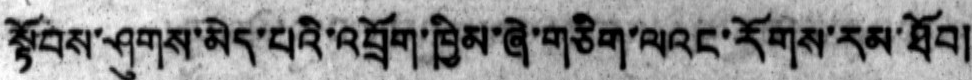སྟོབས་ཤུགས་མེད་པའི་འབྲོག་ཁྱིམ་ཞེ་གཅིག་ལའང་རོགས་རམ་ཐོབ།
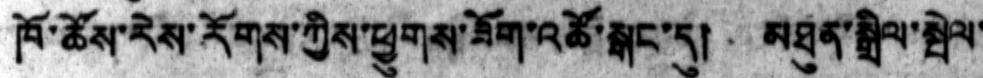ཁོ་ཚོས་རེས་རོགས་ཀྱིས་ཕྱུགས་ཟོག་འཚོ་སྒང་དུ། མཐུན་སྒྲིལ་སྤེལ་
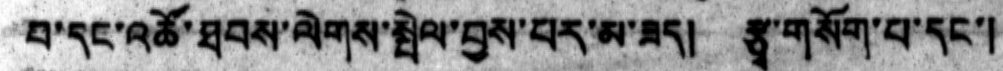པ་དང་འཚོ་ཐབས་ལེགས་སྤེལ་བྱས་པར་མ་ཟད། རྩྭ་གསོག་པ་དང་།
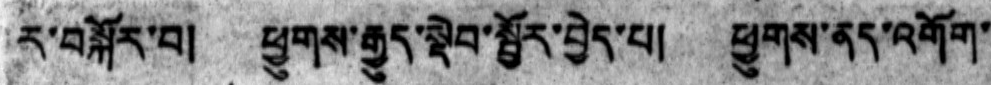ར་བསྐོར་བ། ཕྱུགས་རྒྱུད་སྡེབ་སྦྱོར་བྱེད་པ། ཕྱུགས་ནད་འགོག་
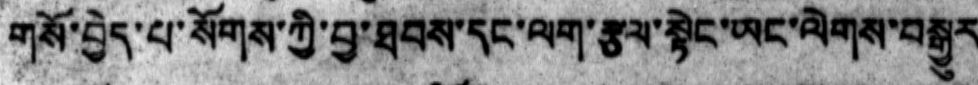གསོ་བྱེད་པ་སོགས་ཀྱི་བྱ་ཐབས་དང་ལག་རྩལ་སྟེང་ཡང་ལེགས་བསྒྱུར
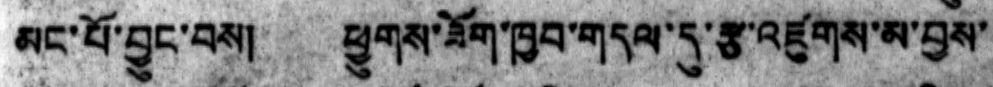མང་པོ་བྱུང་བས། ཕྱུགས་ཟོག་ཁྱབ་གདལ་དུ་རྩ་འཛུགས་མ་བྱས་
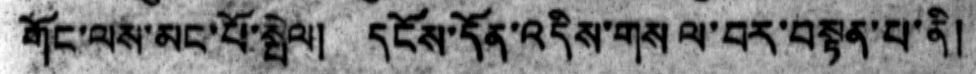གོང་ལས་མང་པོ་སྤེལ། དངོས་དོན་འདིས་གསལ་བར་བསྟན་པ་ནི།
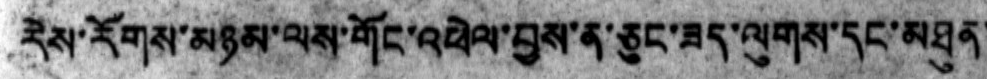རེས་རོགས་མཉམ་ལས་གོང་འཕེལ་བྱས་ན་ཅུང་ཟད་ལུགས་དང་མཐུན་
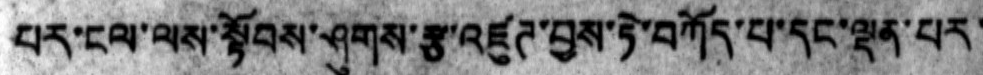པར་ངལ་ལས་སྟོབས་ཤུགས་རྩ་འཛུཊ་བྱས་ཏེ་བཀོད་པ་དང་ལྡན་པར་
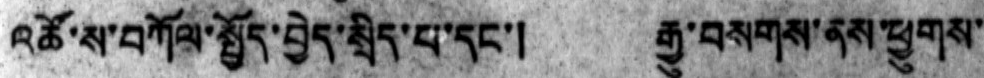འཚོ་ས་བཀོལ་སྤྱོད་བྱེད་སྲིད་པ་དང་། རྒྱུ་བསགས་ནས་ཕྱུགས་
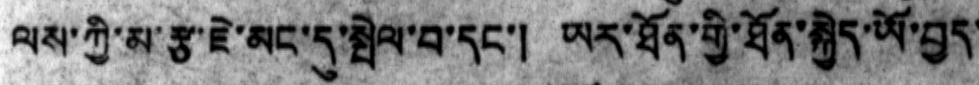ལས་ཀྱི་མ་རྩ་རྗེ་མང་དུ་སྤེལ་བ་དང་། ཡར་ཐོན་གྱི་ཐོན་སྐྱེད་ཡོ་བྱད་
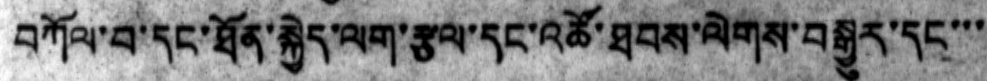བཀོལ་བ་དང་ཐོན་སྐྱེད་ལག་རྩལ་དང་འཚོ་ཐབས་ལེགས་བསྒྱུར་དང་་་
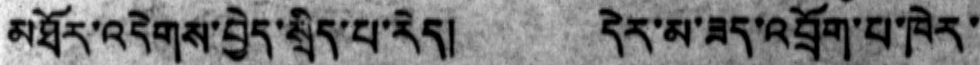མཐོར་འདེགས་བྱེད་སྲིད་པ་རེད།   དེར་མ་ཟད་འབྲོག་པ་ཁེར་
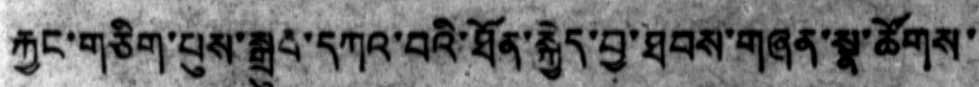རྐྱང་གཅིག་པུས་སྒྲུབ་དཀའ་བའི་ཐོན་སྐྱེད་བྱ་ཐབས་གཞན་སྣ་ཚོགས་
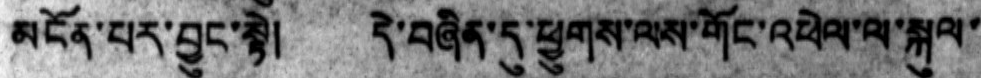མངོན་པར་བྱུང་སྟེ།  དེ་བཞིན་དུ་ཕྱུགས་ལས་གོང་འཕེལ་ལ་སྐུལ་
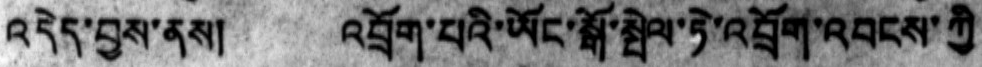འདེད་བྱས་ནས།   འབྲོག་པའི་ཡོང་སྒོ་སྤེལ་ཏེ་འབྲོག་འབངས་ཀྱི
